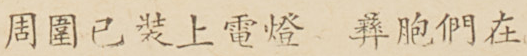周圍已裝上電燈 彝胞們在
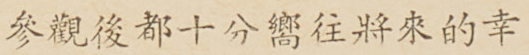參觀後都十分嚮往將來的幸
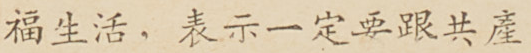福生活，表示一定要跟共產
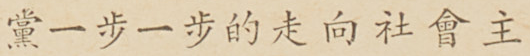黨一步一步的走向社會主
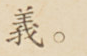義。
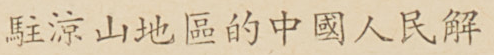駐涼山地區的中國人民解
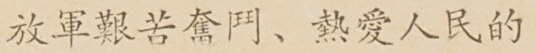放軍艱苦奮鬥、熱愛人民的
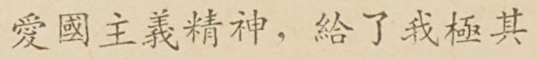愛國主義精神，給了我極其
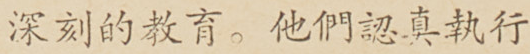深刻的教育。他們認真執行
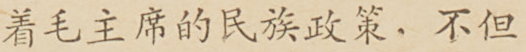着毛主席的民族政策，不但
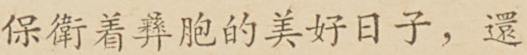保衛着彝胞的美好日子，還
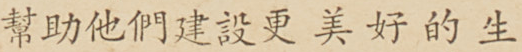幫助他們建設更美好的生
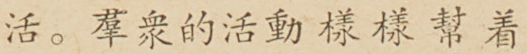活。羣衆的活動樣樣幫着
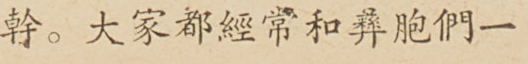幹。大家都經常和彝胞們一
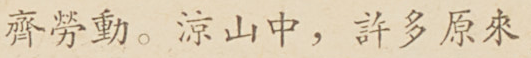齊勞動。涼山中，許多原來
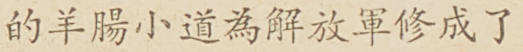的羊腸小道為解放軍修成了
